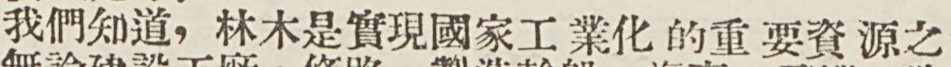我們知道，林木是實現國家工業化的重要資源之
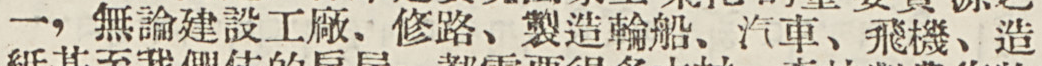一，無論建設工廠、修路、製造輪船、汽車、飛機、造
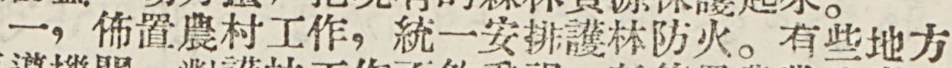一，佈置農村工作，統一安排護林防火。有些地方
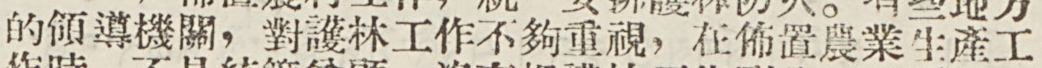的領導機關，對護林工作不夠重視，在佈置農業生產工
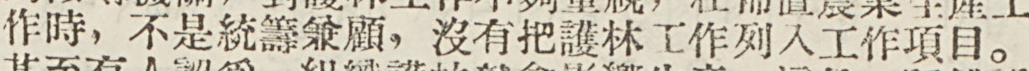作時，不是統籌兼顧，沒有把護林工作列入工作項目。
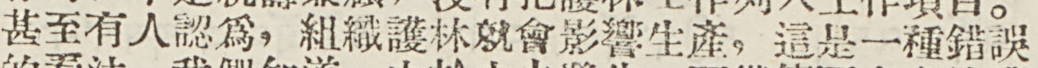甚至有人認爲，組織護林就會影響生產，這是一種錯誤
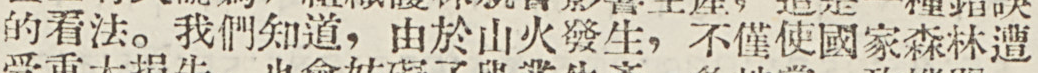的看法。我們知道，由於山火發生，不僅使國家森林遭
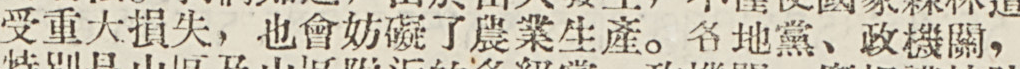受重大損失，也會妨礙了農業生產。各地黨、政機關，
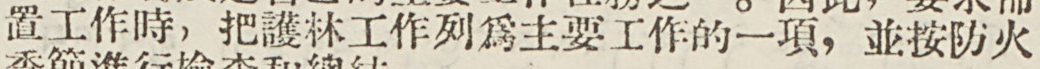置工作時，把護林工作列爲主要工作的一項，並按防火
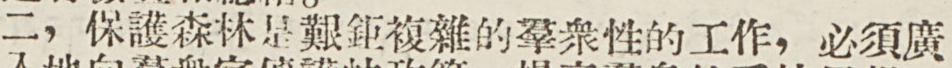二，保護森林是艱鉅複雜的羣衆性的工作，必須廣
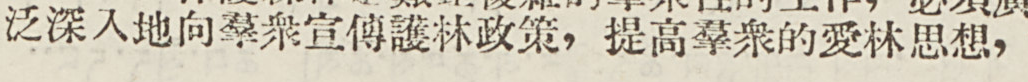泛深入地向羣衆宣傳護林政策，提高羣衆的愛林思想，
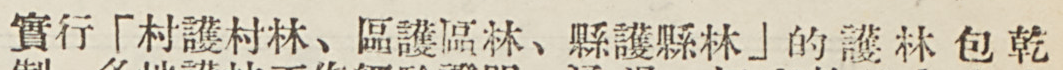實行「村護村林、區護區林、縣護縣林」的護林包乾
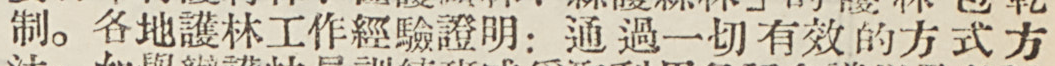制。各地護林工作經驗證明：通過一切有效的方式方
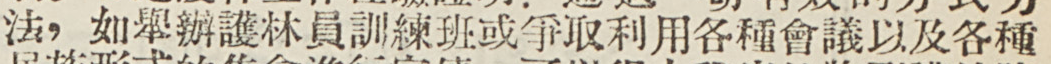法，如舉辦護林員訓練班或爭取利用各種會議以及各種
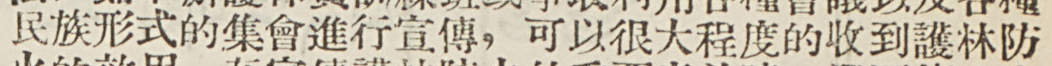民族形式的集會進行宣傳，可以很大程度的收到護林防
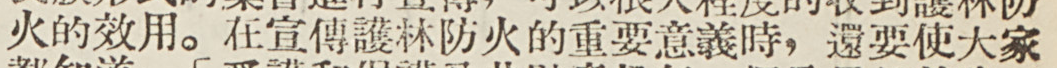火的效用。在宣傳護林防火的重要意義時，還要使大家
